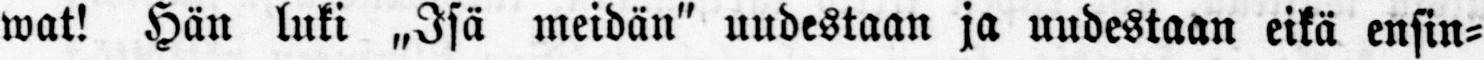wat! Hän luki „Isä meidän" uudestaan ja uudestaan eikä ensin-
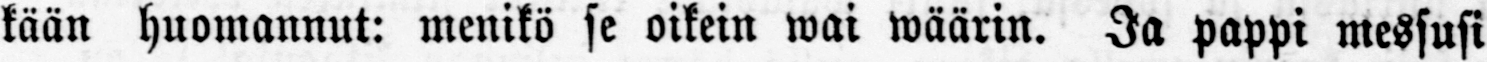kään huomannut: menikö se oikein wai wäärin. Ja pappi messusi
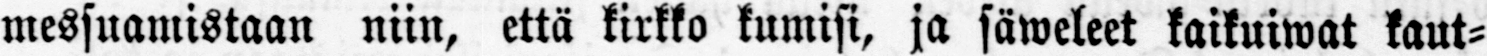messuamistaan niin, että kirkko kumisi, ja säweleet kaikuiwat kaut-
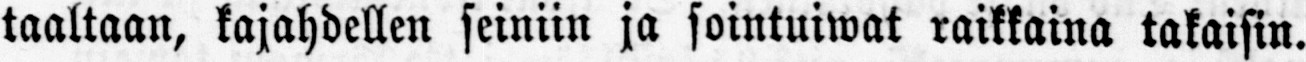taaltaan, kajahdellen seiniin ja sointuiwat raikkaina takaisin.
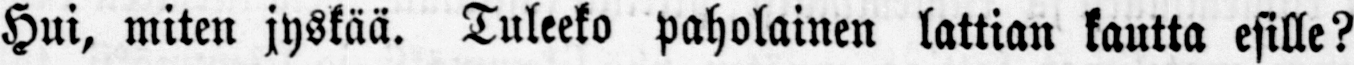Hui, miten jyskää. Tuleeko paholainen lattian kautta esille?
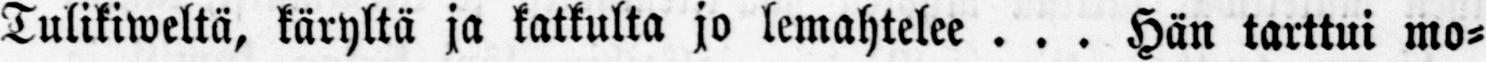Tulikiweltä, käryltä ja katkulta jo lemahtelee . . . Hän tarttui mo-
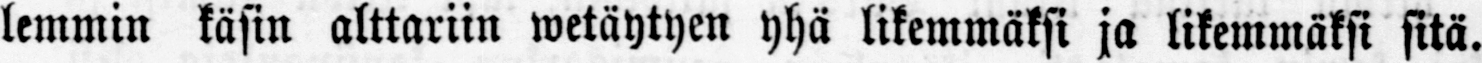lemmin käsin alttariin wetäytyen yhä likemmäksi ja likemmäksi sitä.
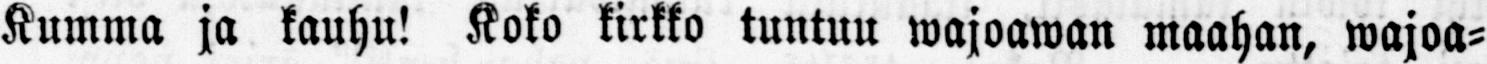Kumma ja kauhu! Koko kirkko tuntuu wajoawan maahan, wajoa-
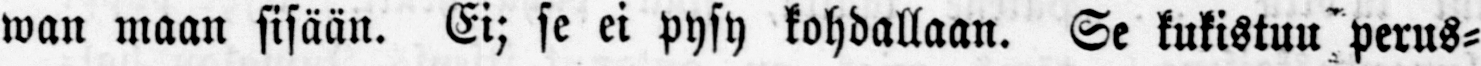wan maan sisään. Ei; se ei pysy kohdallaan. Se kukistuu perus-
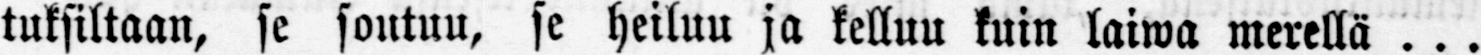tuksiltaan, se joutuu, se heiluu ja kelluu kuin laiwa merellä . . .
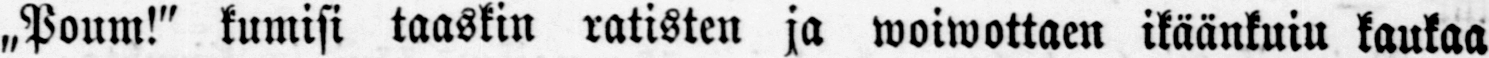„Poum!" kumisi taaskin ratisten ja woiwottaen ikäänkuiu kaukaa
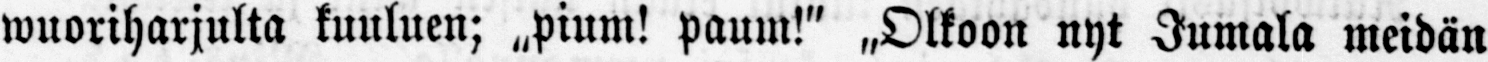wuoriharjulta kuuluen; „pium! paum!" „Olkoon nyt Jumala meidän
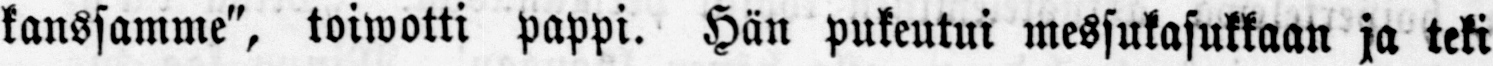kanssamme", toiwotti pappi. Hän pukeutui messukasukkaan ja teki
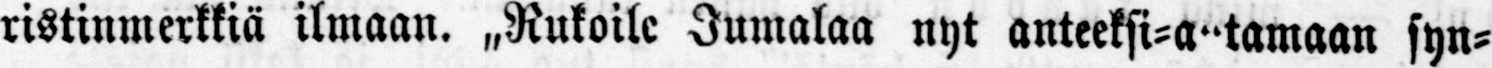ristinmerkkiä ilmaan. „Rukoile Jumalaa nyt anteeksi-a"tamaan syn-
